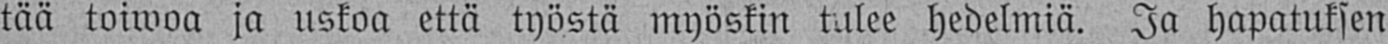tää toiwoa ja uskoa että työstä myöskin tulee hedelmiä. Ja hapatuksen
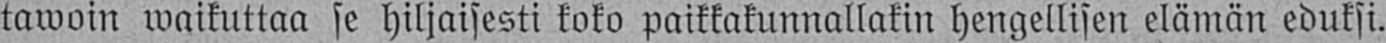tawoin waikuttaa se hiljaisesti koko paikkakunnallakin hengellisen elämän eduksi.
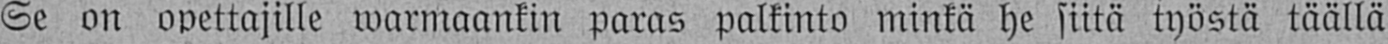Se on opettajille warmaankin paras palkinto minkä he siitä työstä täällä
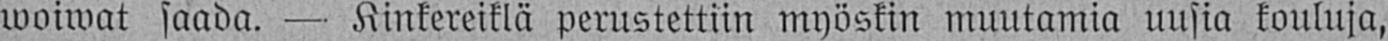woiwat saada. — Kinkereiklä perustettiin myöskin muutamia uusia kouluja,
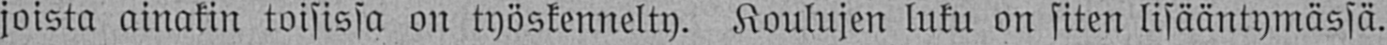joista ainakin toisissa on työskennelty. Koulujen luku on siten lisääntymässä.
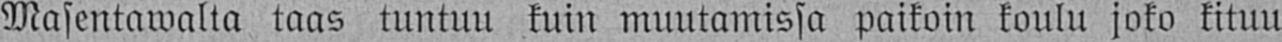Masentawalla taas tuntuu kuin muutamissa paikoin koulu joko kituu
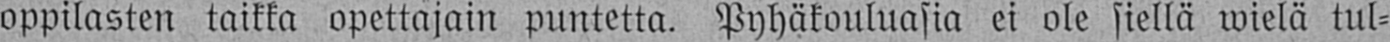oppilasten taikka opettajain puntetta. Pyhäkouluasia ei ole siellä wielä tul-
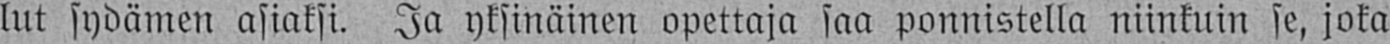lut sydämen asiaksi. Ja yksinäinen opettaja saa ponnistella niinkuin se, joka
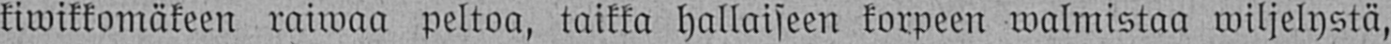kiwikkomäkeen raiwaa peltoa, taikka hallaiseen korpeen walmistaa wiljelystä,
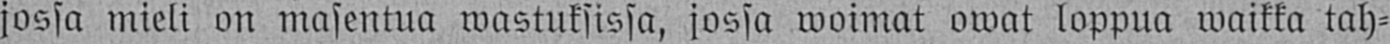jossa mieli on masentua wastuksissa, jossa woimat owat loppua waikka tah-
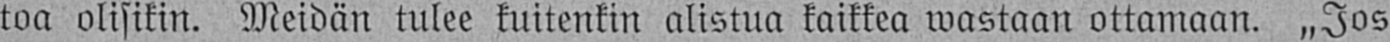toa olisikin. Meidän tulee kuitenkin alistua kaikkea wastaan ottamaan. „Jos
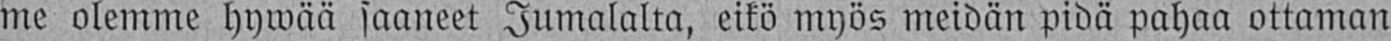me olemme hywää saaneet Jumalalta, eikö myös meidän pidä pahaa ottaman
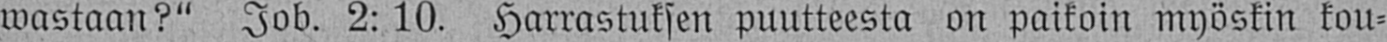wastaan?" Job. 2: 10. Harrastuksen puutteesta on paikoin myöskin kou-
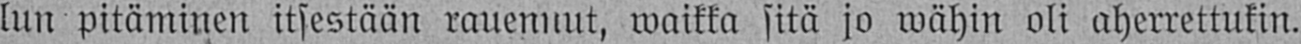lun pitäminen itsestään rauennut, waikka sitä jo wähin oli aherrettukin.
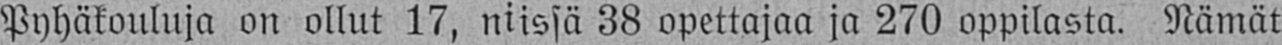Pyhäkouluja on ollut 17, niissä 38 opettajaa ja 270 oppilasta. Nämät
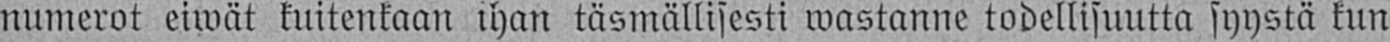numerot eiwät kuitenkaan ihan täsmällisesti wastanne todellisuutta syystä kun
